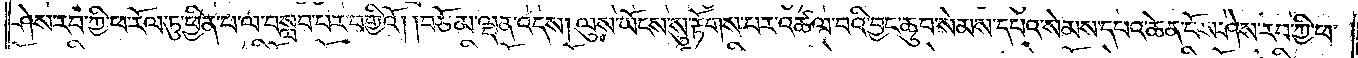ཤེས་རབ་ཀྱི་ཕ་རོལ་ཏུ་ཕྱིན་པ་ལ་བསླབ་པར་བགྱིའོ། །བཅོམ་ལྡན་འདས། ལུས་ཡོངས་སུ་རྟོགས་པར་འཚལ་བའི་བྱང་ཆུབ་སེམས་དཔའ་སེམས་དཔའ་ཆེན་པོས་ཤེས་རབ་ཀྱི་ཕ་
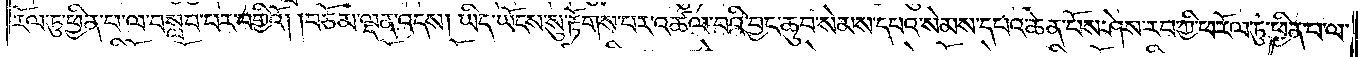རོལ་ཏུ་ཕྱིན་པ་ལ་བསླབ་པར་བགྱིའོ། །བཅོམ་ལྡན་འདས། ཡིད་ཡོངས་སུ་རྟོགས་པར་འཚལ་བའི་བྱང་ཆུབ་སེམས་དཔའ་སེམས་དཔའ་ཆེན་པོས་ཤེས་རབ་ཀྱི་ཕ་རོལ་ཏུ་ཕྱིན་པ་ལ་
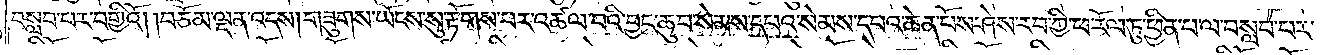བསླབ་པར་བགྱིའོ། །བཅོམ་ལྡན་འདས། གཟུགས་ཡོངས་སུ་རྟོགས་པར་འཚལ་བའི་བྱང་ཆུབ་སེམས་དཔའ་སེམས་དཔའ་ཆེན་པོས་ཤེས་རབ་ཀྱི་ཕ་རོལ་ཏུ་ཕྱིན་པ་ལ་བསླབ་པར་
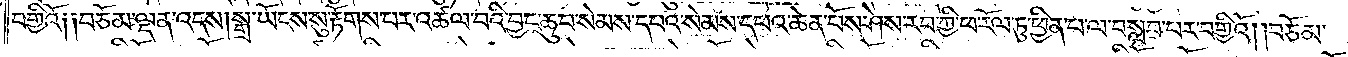བགྱིའོ༑ ༑བཅོམ་ལྡན་འདས། སྒྲ་ཡོངས་སུ་རྟོགས་པར་འཚལ་བའི་བྱང་ཆུབ་སེམས་དཔའ་སེམས་དཔའ་ཆེན་པོས་ཤེས་རབ་ཀྱི་ཕ་རོལ་ཏུ་ཕྱིན་པ་ལ་བསླབ་པར་བགྱིའོ། །བཅོམ་
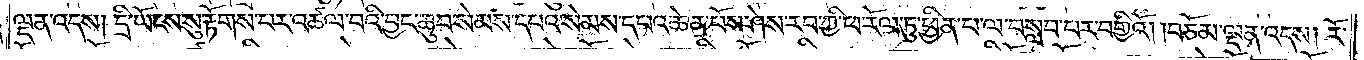ལྡན་འདས། དྲི་ཡོངས་སུ་རྟོགས་པར་འཚལ་བའི་བྱང་ཆུབ་སེམས་དཔའ་སེམས་དཔའ་ཆེན་པོས་ཤེས་རབ་ཀྱི་ཕ་རོལ་ཏུ་ཕྱིན་པ་ལ་བསླབ་པར་བགྱིའོ། །བཅོམ་ལྡན་འདས། རོ་
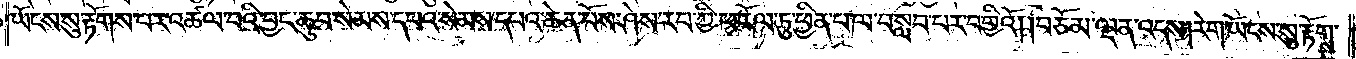ཡོངས་སུ་རྟོགས་པར་འཚལ་བའི་བྱང་ཆུབ་སེམས་དཔའ་སེམས་དཔའ་ཆེན་པོས་ཤེས་རབ་ཀྱི་ཕ་རོལ་ཏུ་ཕྱིན་པ་ལ་བསླབ་པར་བགྱིའོ། །བཅོམ་ལྡན་འདས། རེག་ཡོངས་སུ་རྟོགས་
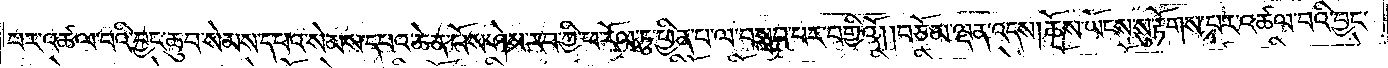པར་འཚལ་བའི་བྱང་ཆུབ་སེམས་དཔའ་སེམས་དཔའ་ཆེན་པོས་ཤེས་རབ་ཀྱི་ཕ་རོལ་ཏུ་ཕྱིན་པ་ལ་བསླབ་པར་བགྱིའོ། །བཅོམ་ལྡན་འདས། ཆོས་ཡོངས་སུ་རྟོགས་པར་འཚལ་བའི་བྱང་
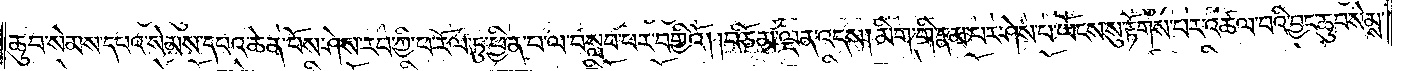ཆུབ་སེམས་དཔའ་སེམས་དཔའ་ཆེན་པོས་ཤེས་རབ་ཀྱི་ཕ་རོལ་ཏུ་ཕྱིན་པ་ལ་བསླབ་པར་བགྱིའོ། །བཅོམ་ལྡན་འདས། མིག་གི་རྣམ་པར་ཤེས་པ་ཡོངས་སུ་རྟོགས་པར་འཚལ་བའི་བྱང་ཆུབ་སེམས་
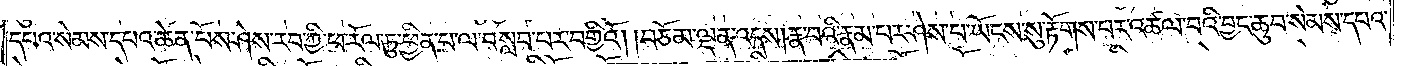དཔའ་སེམས་དཔའ་ཆེན་པོས་ཤེས་རབ་ཀྱི་ཕ་རོལ་ཏུ་ཕྱིན་པ་ལ་བསླབ་པར་བགྱིའོ། །བཅོམ་ལྡན་འདས། རྣ་བའི་རྣམ་པར་ཤེས་པ་ཡོངས་སུ་རྟོགས་པར་འཚལ་བའི་བྱང་ཆུབ་སེམས་དཔའ་
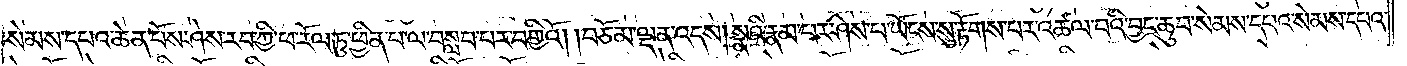སེམས་དཔའ་ཆེན་པོས་ཤེས་རབ་ཀྱི་ཕ་རོལ་ཏུ་ཕྱིན་པ་ལ་བསླབ་པར་བགྱིའོ། །བཅོམ་ལྡན་འདས། སྣའི་རྣམ་པར་ཤེས་པ་ཡོངས་སུ་རྟོགས་པར་འཚལ་བའི་བྱང་ཆུབ་སེམས་དཔའ་སེམས་དཔའ་
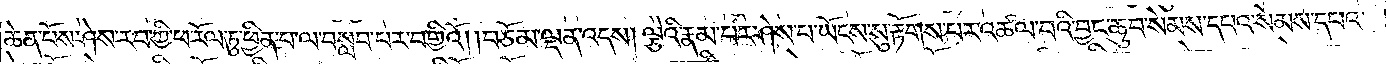ཆེན་པོས་ཤེས་རབ་ཀྱི་ཕ་རོལ་ཏུ་ཕྱིན་པ་ལ་བསླབ་པར་བགྱིའོ། །བཅོམ་ལྡན་འདས། ལྕེའི་རྣམ་པར་ཤེས་པ་ཡོངས་སུ་རྟོགས་པར་འཚལ་བའི་བྱང་ཆུབ་སེམས་དཔའ་སེམས་དཔའ་
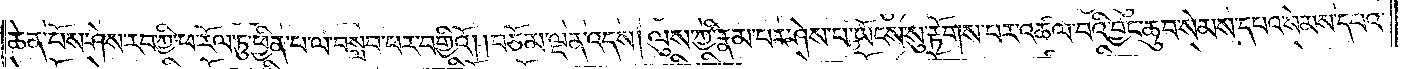ཆེན་པོས་ཤེས་རབ་ཀྱི་ཕ་རོལ་ཏུ་ཕྱིན་པ་ལ་བསླབ་པར་བགྱིའོ། །བཅོམ་ལྡན་འདས། ལུས་ཀྱི་རྣམ་པར་ཤེས་པ་ཡོངས་སུ་རྟོགས་པར་འཚལ་བའི་བྱང་ཆུབ་སེམས་དཔའ་སེམས་དཔའ་
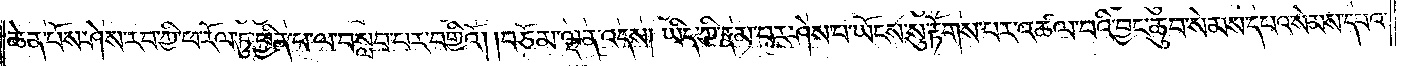ཆེན་པོས་ཤེས་རབ་ཀྱི་ཕ་རོལ་ཏུ་ཕྱིན་པ་ལ་བསླབ་པར་བགྱིའོ། །བཅོམ་ལྡན་འདས། ཡིད་ཀྱི་རྣམ་པར་ཤེས་པ་ཡོངས་སུ་རྟོགས་པར་འཚལ་བའི་བྱང་ཆུབ་སེམས་དཔའ་སེམས་དཔའ་
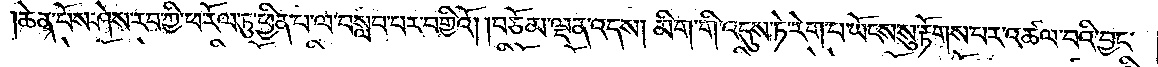ཆེན་པོས་ཤེས་རབ་ཀྱི་ཕ་རོལ་ཏུ་ཕྱིན་པ་ལ་བསླབ་པར་བགྱིའོ། །བཅོམ་ལྡན་འདས། མིག་གི་འདུས་ཏེ་རེག་པ་ཡོངས་སུ་རྟོགས་པར་འཚལ་བའི་བྱང་
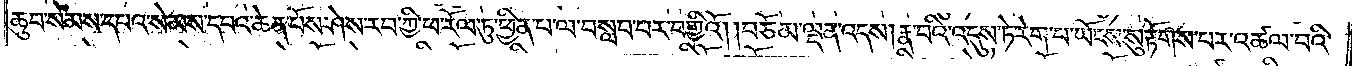ཆུབ་སེམས་དཔའ་སེམས་དཔའ་ཆེན་པོས་ཤེས་རབ་ཀྱི་ཕ་རོལ་ཏུ་ཕྱིན་པ་ལ་བསླབ་པར་བགྱིའོ། །བཅོམ་ལྡན་འདས། རྣ་བའི་འདུས་ཏེ་རེག་པ་ཡོངས་སུ་རྟོགས་པར་འཚལ་བའི་
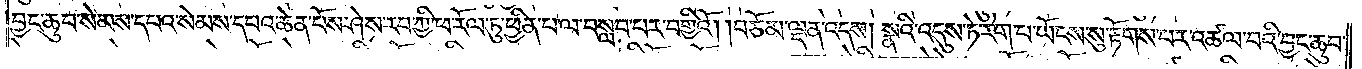བྱང་ཆུབ་སེམས་དཔའ་སེམས་དཔའ་ཆེན་པོས་ཤེས་རབ་ཀྱི་ཕ་རོལ་ཏུ་ཕྱིན་པ་ལ་བསླབ་པར་བགྱིའོ། །བཅོམ་ལྡན་འདས། སྣའི་འདུས་ཏེ་རེག་པ་ཡོངས་སུ་རྟོགས་པར་འཚལ་བའི་བྱང་ཆུབ་
